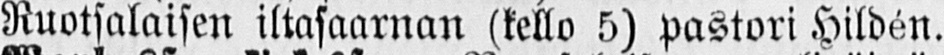Ruotsalaisen iltasaarnan (kello 5) pastori Hildén.
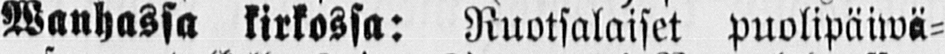Wanhassa kirkossa: Ruotsalaiset puolipäiwä-
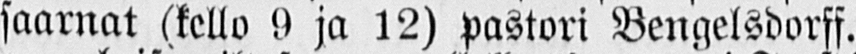saarnat (kello 9 ja 12) pastori Bengelsdorff.
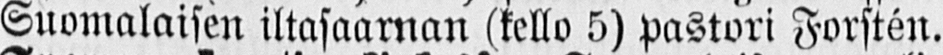Suomalaisen iltasaarnan (kello 5) pastori Forstén.
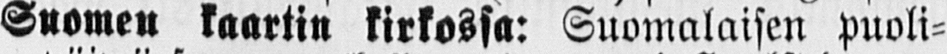Suomen kaartin kirkossa: Suomalaisen puoli-
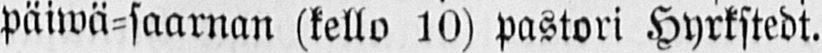päiwä-saarnan (kello 10) pastori Hyrkstedt.
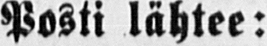Posti lähtee:
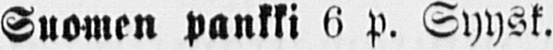Suomen pankki 6 p. Syysk.
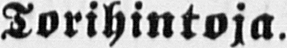Torihintoja.
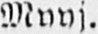Myyj.
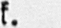Ostaj. k.
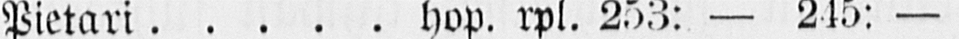Pietari hop. rpl. 253: — 245: —
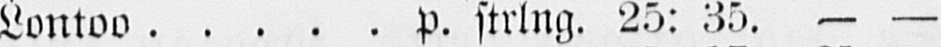Lontoo p. strlng. 25: 35. — —
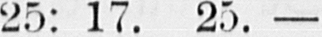25: 17. 25. —
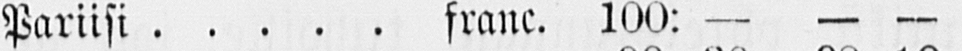Pariisi franc. 100: — — —
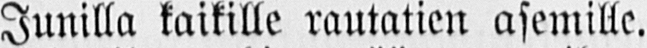Junilla kaikille rautatien asemille.
